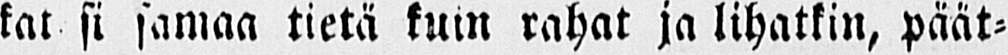kat si samaa tietä kuin rahat ja lihatkin, päät-
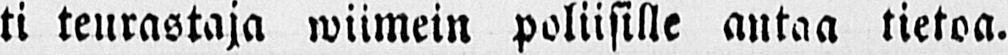ti teurastaja wiimein poliisille antaa tietoa.
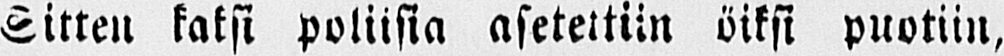Sitten kaksi poliisia aseteltiin öiksi puotiin,
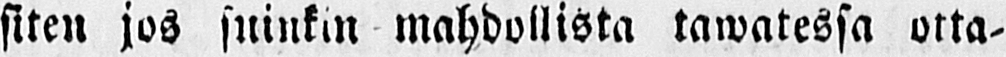siten jos suinkin mahdollista tawatessa otta-
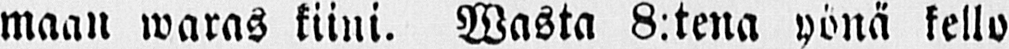maan waras kiini. Wasta 8:tena yönä kello
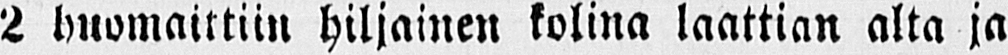2 huomaittiin hiljainen kolina laattian alta ja
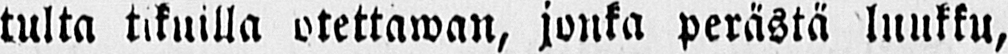tulta tikuilla otettawan, jonka perästä luukku,
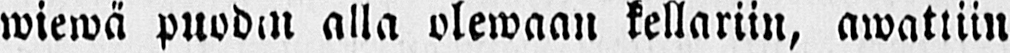wiewä puodin alla olewaan kellariin, awattiin
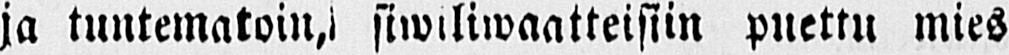ja tuntematoin,l siwiliwaatteisiin puettu mies
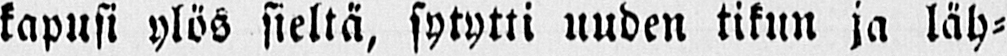kapusi ylös sieltä, sytytti uuden tikun ja läh-
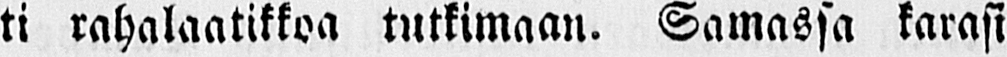ti rahalaatikkoa tutkimaan. Samassa karasi
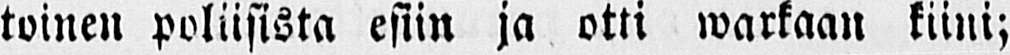toinen poliisista esiin ja otti warkaan kiini;
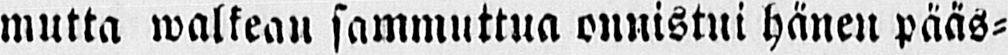mutta walkean sammuttua onnistui hänen pääs-
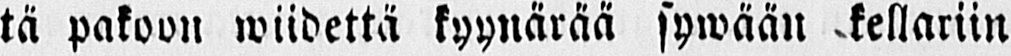tä pakoon wiidettä kyynärää sywään -kellariin
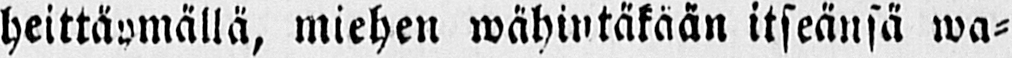heittäymällä, miehen wähintäkään itseänsä wa-
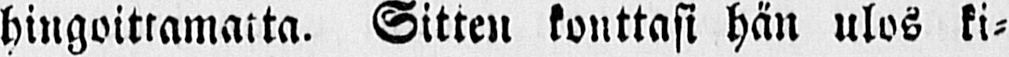hingoittamatta. Sitten konttasi hän ulos ki-
